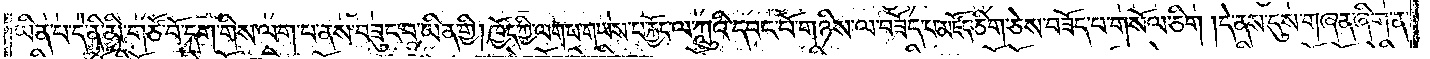ཡིན་པ་དེ་ནི་མི་གཙོ་བོ་དག་གིས་ལག་པ་ནས་བཟུང་བ་ཡིན་གྱི། ཁྱོད་ཀྱི་ལག་པ་གཡས་པ་རྐྱོང་ལ་ཀླུའི་དབང་པོ་གཉིས་ལ་བཟོད་པ་མཛོད་ཅིག་ཅེས་བཟོད་པ་གསོལ་ཅིག །དེ་ནས་དུས་གཞན་ཞིག་ན་
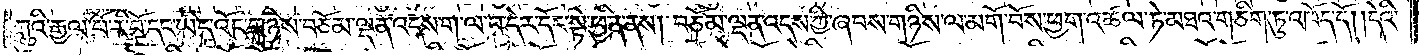ཀླུའི་རྒྱལ་པོ་རི་བོ་དང་ཡིད་འོང་གཉིས་བཅོམ་ལྡན་འདས་ག་ལ་བ་དེར་དོང་སྟེ་ཕྱིན་ནས། བཅོམ་ལྡན་འདས་ཀྱི་ཞབས་གཉིས་ལ་མགོ་བོས་ཕྱག་འཚལ་ཏེ་མཐའ་གཅིག་ཏུ་འཁོད་དོ། །དེའི་
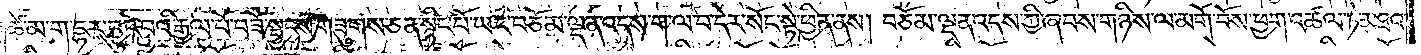ཚེ་མ་ག་དྷར་བྱུང་བའི་རྒྱལ་པོ་བཟོ་སྦྱངས་གཟུགས་ཅན་སྙིང་པོ་ཡང་བཅོམ་ལྡན་འདས་ག་ལ་བ་དེར་སོང་སྟེ་ཕྱིན་ནས། བཅོམ་ལྡན་འདས་ཀྱི་ཞབས་གཉིས་ལ་མགོ་བོས་ཕྱག་འཚལ་ཏེ་མཐའ་
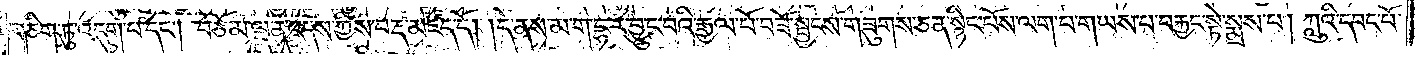གཅིག་ཏུ་འདུག་པ་དང༌། བཅོམ་ལྡན་འདས་ཀྱིས་བརྡ་མཛད་དོ། །དེ་ནས་མ་ག་དྷར་བྱུང་བའི་རྒྱལ་པོ་བཟོ་སྦྱངས་གཟུགས་ཅན་སྙིང་པོས་ལག་པ་གཡས་པ་བརྐྱང་སྟེ་སྨྲས་པ། ཀླུའི་དབང་པོ་
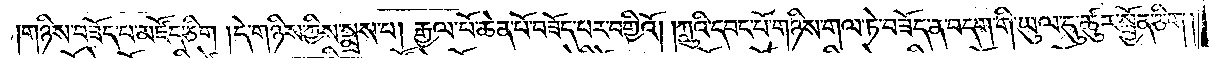གཉིས་བཟོད་པ་མཛོད་ཅིག །དེ་གཉིས་ཀྱིས་སྨྲས་པ། རྒྱལ་པོ་ཆེན་པོ་བཟོད་པར་བགྱིའོ། །ཀླུའི་དབང་པོ་གཉིས་གལ་ཏེ་བཟོད་ན་བདག་གི་ཡུལ་དུ་ཚུར་སྤྱོན་ཅིག་
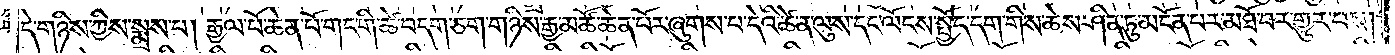དེ་གཉིས་ཀྱིས་སྨྲས་པ། རྒྱལ་པོ་ཆེན་པོ་གང་གི་ཚེ་བདག་ཅག་གཉིས་རྒྱ་མཚོ་ཆེན་པོར་ཞུགས་པ་དེའི་ཚེ་ན་ལུས་དང་ལོངས་སྤྱོད་དག་གིས་ཆེས་ཤིན་ཏུ་མངོན་པར་མཐོ་བར་གྱུར་པས་
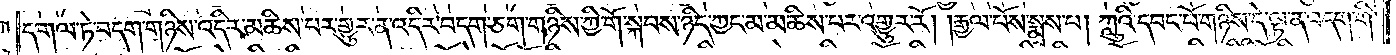ད་གལ་ཏེ་བདག་གཉིས་འདིར་མཆིས་པར་གྱུར་ན་འདིར་བདག་ཅག་གཉིས་ཀྱི་གོ་སྐབས་ཉིད་ཀྱང་མ་མཆིས་པར་འགྱུར་རོ། །རྒྱལ་པོས་སྨྲས་པ། ཀླུའི་དབང་པོ་གཉིས་དེ་ལྟ་ན་བདག་གི་
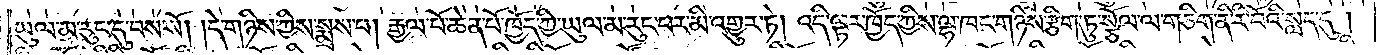ཡུལ་མ་རུང་དུ་བས་སོ། །དེ་གཉིས་ཀྱིས་སྨྲས་པ། རྒྱལ་པོ་ཆེན་པོ་ཁྱོད་ཀྱི་ཡུལ་མ་རུང་བར་མི་འགྱུར་ཏེ། འདི་ལྟར་ཁྱོད་ཀྱི་ལྷ་ཁང་གཉིས་རྩིག་ཏུ་སྩོལ་ལ་གཅིག་ནི་རི་བོའི་སླད་དུ།
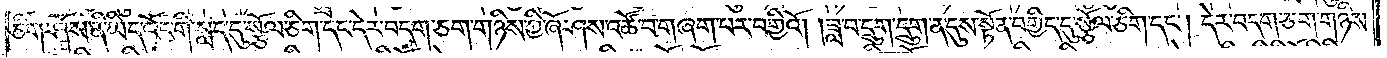ཅིག་ཤོས་ནི་ཡིད་འོང་གི་སླད་དུ་སྩོལ་ཅིག་དང་དེར་བདག་ཅག་གཉིས་ཀྱི་ཞོ་ཤས་འཚོ་བ་གཞག་པར་བགྱིའོ། །ཟླ་བ་དྲུག་དྲུག་ན་དུས་སྟོན་བགྱིད་དུ་སྩོལ་ཅིག་དང༌། དེར་བདག་ཅག་གཉིས་
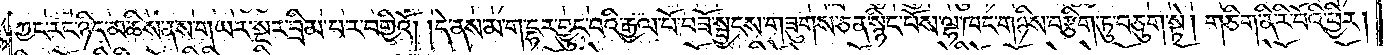ཀྱང་རང་ཉིད་མཆིས་ནས་གཡར་སྔར་བྲིམ་པར་བགྱིའོ། །དེ་ནས་མ་ག་དྷར་བྱུང་བའི་རྒྱལ་པོ་བཟོ་སྦྱངས་གཟུགས་ཅན་སྙིང་པོས་ལྷ་ཁང་གཉིས་བརྩིག་ཏུ་བཅུག་སྟེ། གཅིག་ནི་རི་བོའི་ཕྱིར།
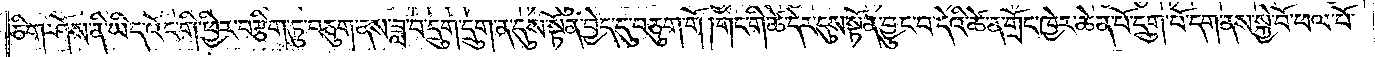ཅིག་ཤོས་ནི་ཡིད་འོང་གི་ཕྱིར་བརྩིག་ཏུ་བཅུག་ནས་ཟླ་བ་དྲུག་དྲུག་ན་དུས་སྟོན་བྱེད་དུ་བཅུག་གོ །གང་གི་ཚེ་དེར་དུས་སྟོན་བྱུང་བ་དེའི་ཚེ་ན་གྲོང་ཁྱེར་ཆེན་པོ་དྲུག་པོ་དག་ནས་སྐྱེ་བོ་ཕལ་པོ་
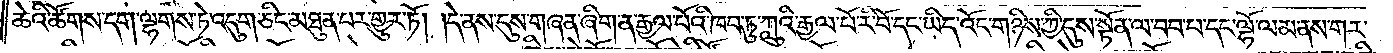ཆེའི་ཚོགས་དག་ལྷགས་ཏེ་འདུག་ཅིང་མཐུན་པར་གྱུར་ཏོ། །དེ་ནས་དུས་གཞན་ཞིག་ན་རྒྱལ་པོའི་ཁབ་ཏུ་ཀླུའི་རྒྱལ་པོ་རི་བོ་དང་ཡིད་འོང་གཉིས་ཀྱི་དུས་སྟོན་ལ་བབ་པ་དང་ལྷོ་ལམ་ནས་གར་
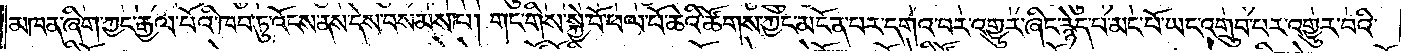མཁན་ཞིག་ཀྱང་རྒྱལ་པོའི་ཁབ་ཏུ་འོངས་ནས་དེས་བསམས་པ། གང་གིས་སྐྱེ་བོ་ཕལ་པོ་ཆེའི་ཚོགས་ཀྱང་མངོན་པར་དགའ་བར་འགྱུར་ཞིང་རྙེད་པ་མང་པོ་ཡང་འགྲུབ་པར་འགྱུར་བའི་
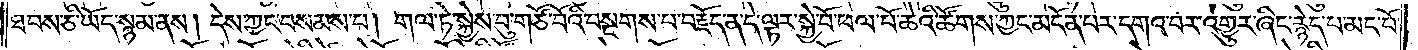ཐབས་ཅི་ཡོད་སྙམ་ནས། དེས་ཀྱང་བསམས་པ། གལ་ཏེ་སྐྱེས་བུ་གཙོ་བོའི་བསྔགས་པ་བརྗོད་ན་དེ་ལྟར་སྐྱེ་བོ་ཕལ་པོ་ཆེའི་ཚོགས་ཀྱང་མངོན་པར་དགའ་བར་འགྱུར་ཞིང་རྙེད་པ་མང་པོ་
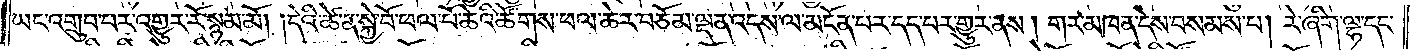ཡང་འགྲུབ་པར་འགྱུར་རོ་སྙམ་མོ། །དེའི་ཚེ་ན་སྐྱེ་བོ་ཕལ་པོ་ཆེའི་ཚོགས་ཕལ་ཆེར་བཅོམ་ལྡན་འདས་ལ་མངོན་པར་དད་པར་གྱུར་ནས། གར་མཁན་དེས་བསམས་པ། རེ་ཞིག་ལྷ་དང་
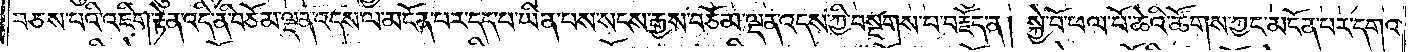བཅས་པའི་འཇིག་རྟེན་འདི་ནི་བཅོམ་ལྡན་འདས་ལ་མངོན་པར་དད་པ་ཡིན་པས་སངས་རྒྱས་བཅོམ་ལྡན་འདས་ཀྱི་བསྔགས་པ་བརྗོད་ན། སྐྱེ་བོ་ཕལ་པོ་ཆེའི་ཚོགས་ཀྱང་མངོན་པར་དགའ་
